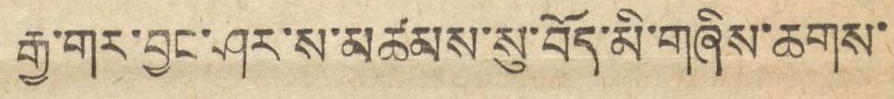རྒྱ་གར་བྱང་ཤར་ས་མཚམས་སུ་བོད་མི་གཞིས་ཆགས་
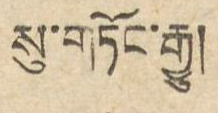སུ་གཏོང་རྒྱུ།
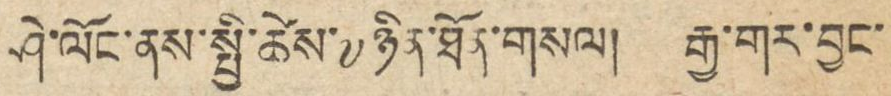ཤེ་ལོང་ནས་སྤྱི་ཚེས་༧ ཉིན་ཐོན་གསལ། རྒྱ་གར་བྱང་
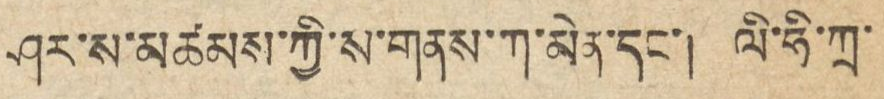ཤར་ས་མཚམས་ཀྱི་ས་གནས་ཀ་མེན་དང་། ལི་ཧི་ཀྲ་
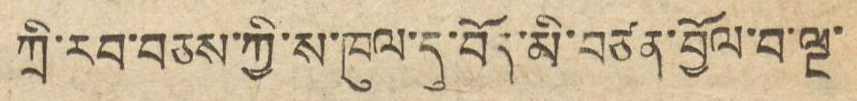ཀྲི་རབ་བཅས་ཀྱི་ས་ཁུལ་དུ་བོད་མི་བཙན་བྱོལ་བ་ལྔ་
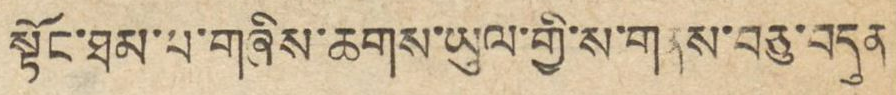སྟོང་ཐམ་པ་གཞིས་ཆགས་ཡུལ་གྱི་ས་གནས་བཅུ་བདུན་
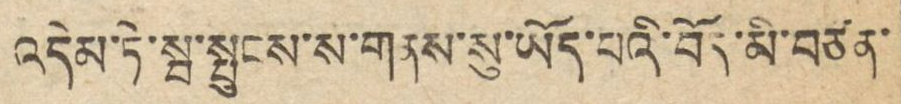འདེམ་ཏེ་སྦ་སྤུངས་ས་གནས་སུ་ཡོད་པའི་བོད་མི་བཙན་
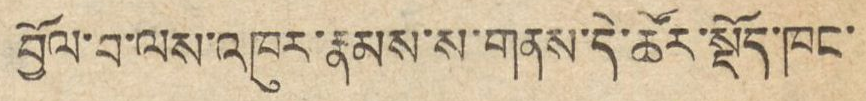བྱོལ་བ་ལས་འཁུར་རྣམས་ས་གནས་དེ་ཚོར་སྡོད་ཁང་
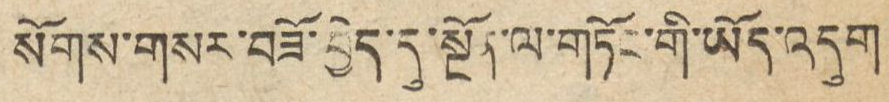སོགས་གསར་བཟོ་བྱེད་དུ་སྔོན་ལ་གཏོང་གི་ཡོད་འདུག
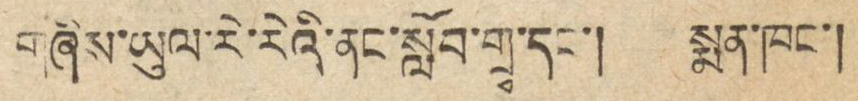གཞིས་ཡུལ་རེ་རེའི་ནང་སློབ་གྲྭ་དང་། སྨན་ཁང་།
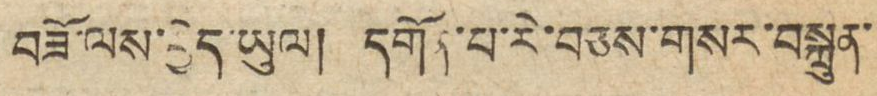བཟོ་ལས་བྱེད་ཡུལ། དགོན་པ་རེ་བཅས་གསར་བསྐྲུན་
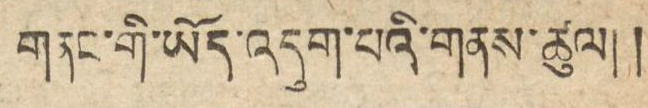གནང་གི་ཡོད་འདུག་པའི་གནས་ཚུལ།།
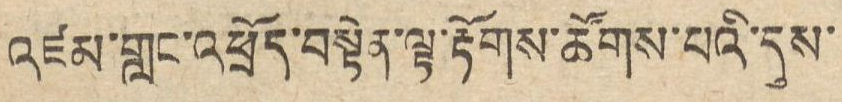འཛམ་གླང་འཕྲོད་བསྟེན་ལྟ་རྟོགས་ཚོགས་པའི་དུས་
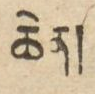ཆེན།
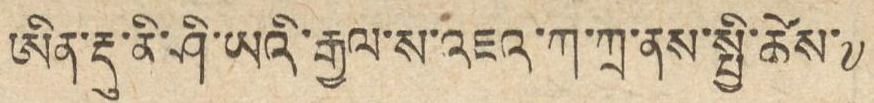ཨིན་རྡུ་ནི་ཤི་ཡའི་རྒྱལ་ས་འཇའ་ཀ་ཀྲ་ནས་སྤྱི་ཚེས་༧
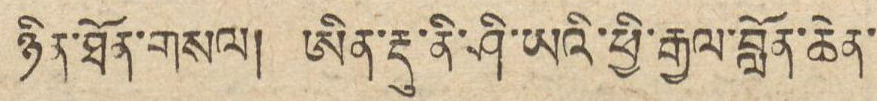ཉིན་ཐོན་གསལ། ཨིན་རྡུ་ནི་ཤི་ཡའི་ཕྱི་རྒྱལ་བློན་ཆེན་
